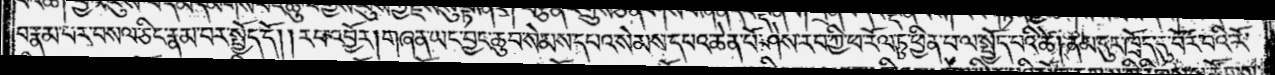བ་རྣམ་པར་བསལ་ཅིང་རྣམ་པར་སྤྱོད་དོ། །རབ་འབྱོར། གཞན་ཡང་བྱང་ཆུབ་སེམས་དཔའ་སེམས་དཔའ་ཆེན་པོ་ཤེས་རབ་ཀྱི་ཕ་རོལ་ཏུ་ཕྱིན་པ་ལ་སྤྱོད་པའི་ཚེ། ནམ་དུར་ཁྲོད་དུ་པོར་བའི་རོ་
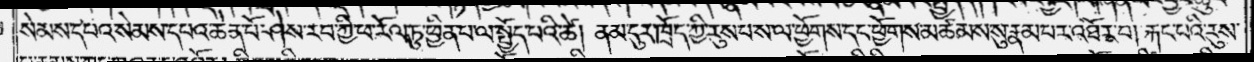སེམས་དཔའ་སེམས་དཔའ་ཆེན་པོ་ཤེས་རབ་ཀྱི་ཕ་རོལ་ཏུ་ཕྱིན་པ་ལ་སྤྱོད་པའི་ཚེ། ནམ་དུར་ཁྲོད་ཀྱི་རུས་པ་ས་ལ་ཕྱོགས་དང་ཕྱོགས་མཚམས་སུ་རྣམ་པར་འཐོར་བ། རྐང་པའི་རུས་
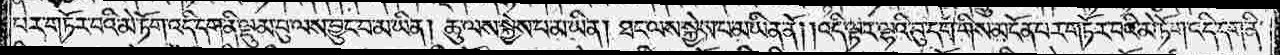པར་གཏོར་བའི་མེ་ཏོག་འདི་དག་ནི་ལྡུམ་བུ་ལས་བྱུང་བ་མ་ཡིན། ཆུ་ལས་སྐྱེས་པ་མ་ཡིན། ཐང་ལས་སྐྱེས་པ་མ་ཡིན་ནོ། །འདི་ལྟར་ལྷའི་བུ་དག་གིས་མངོན་པར་གཏོར་བའི་མེ་ཏོག་འདི་དག་ནི་
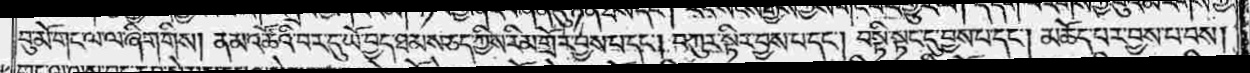བུ་མོ་གང་ལ་ལ་ཞིག་གིས། ནམ་འཚོའི་བར་དུ་ཡོ་བྱད་ཐམས་ཅད་ཀྱིས་རིམ་གྲོར་བྱས་པ་དང༌། བཀུར་སྟིར་བྱས་པ་དང༌། བསྟི་སྟང་དུ་བྱས་པ་དང༌། མཆོད་པར་བྱས་པ་བས།
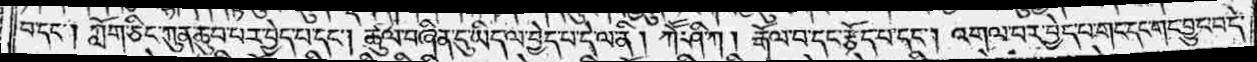བ་དང༌། ཀློག་ཅིང་ཀུན་ཆུབ་པར་བྱེད་པ་དང༌། ཚུལ་བཞིན་དུ་ཡིད་ལ་བྱེད་པ་དེ་ལ་ནི། ཀཽ་ཤི་ཀ། རྒོལ་བ་དང་རྩོད་པ་དང༌། འགལ་བར་བྱེད་པ་གང་དང་གང་བྱུང་བ་དེ་
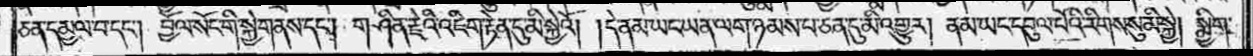ཅན་དམྱལ་བ་དང༌། བྱོལ་སོང་གི་སྐྱེ་གནས་དང༌། གཤིན་རྗེའི་འཇིག་རྟེན་དུ་མི་སྐྱེའོ། །དེ་ནམ་ཡང་ཡན་ལག་ཉམས་པ་ཅན་དུ་མི་འགྱུར། ནམ་ཡང་དབུལ་པོའི་རིགས་སུ་མི་སྐྱེ། སྨྱིག་
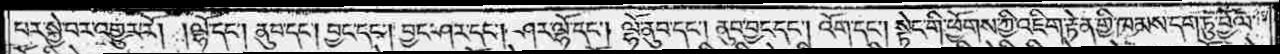དེས་གཟུགས་བརྙན་དུའང་འགྱུར་རེ་སྐན། ཤཱ་ར་དྭ་ཏིའི་བུ། ངས་ནི་གང་ཟག་དེ་ལྟ་བུ་ཐོས་པར་བྱ་བར་ཡང་མ་གནང་ན་འཕྲད་པར་ལྟ་ཅི་སྨོས་ཏེ། འགྲོགས་པར་ལྟ་ཅི་སྨོས་ཀྱང་མི་སྨོས་སོ། །
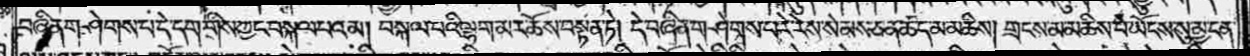བཞིན་གཤེགས་པ་དེ་དག་གིས་ཀྱང་བསྐལ་པའམ། བསྐལ་པའི་ལྷག་མར་ཆོས་བསྟན་ཏེ། དེ་བཞིན་གཤེགས་པ་རེ་རེས་སེམས་ཅན་ཚད་མ་མཆིས། གྲངས་མ་མཆིས་པ་ཡོངས་སུ་མྱ་ངན་
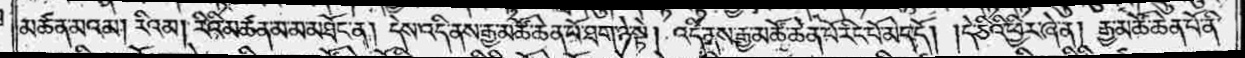མཚན་མའམ། རིའམ། རིའི་མཚན་མ་མ་མཐོང་ན། དེས་འདི་ནས་རྒྱ་མཚོ་ཆེན་པོ་ཐག་ཉེ་སྟེ། འདི་ནས་རྒྱ་མཚོ་ཆེན་པོ་རིང་པོ་མེད་དོ། །དེ་ཅིའི་ཕྱིར་ཞེ་ན། རྒྱ་མཚོ་ཆེན་པོ་ནི་
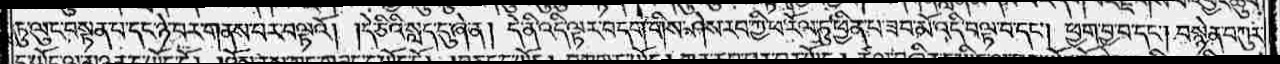ཏུ་ལུང་བསྟན་པ་དང་ཉེ་བར་གནས་པར་བལྟའོ། །དེ་ཅིའི་སླད་དུ་ཞེ་ན། དེ་ནི་འདི་ལྟར་བདག་གིས་ཤེས་རབ་ཀྱི་ཕ་རོལ་ཏུ་ཕྱིན་པ་ཟབ་མོ་འདི་བལྟ་བ་དང༌། ཕྱག་བྱ་བ་དང༌། བསྙེན་བཀུར་
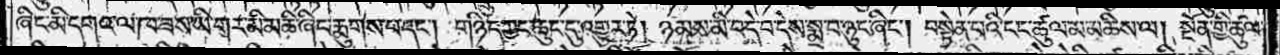ཞིང་མི་དགའ་ལ་ཁ་ཟས་ཡི་གར་མི་མཆི་ཞིང་རྨུགས་པ་དང༌། གཉིད་ཀྱང་ཆུང་དུ་འགྱུར་ཏེ། ཉམས་མི་བདེ་བ་དེས་སྨྲ་བ་ཉུང་ཞིང༌། བསྟེན་པའི་ངང་ཚུལ་མ་མཆིས་ལ། སྔོན་གྱི་ཚུལ་
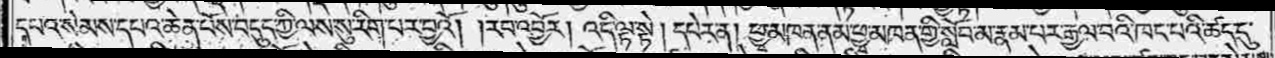དཔའ་སེམས་དཔའ་ཆེན་པོས་བདུད་ཀྱི་ལས་སུ་རིག་པར་བྱའོ། །རབ་འབྱོར། འདི་ལྟ་སྟེ། དཔེར་ན། ཕྱྭ་མཁན་ནམ་ཕྱྭ་མཁན་གྱི་སློབ་མ་རྣམ་པར་རྒྱལ་བའི་ཁང་པའི་ཚད་དུ་
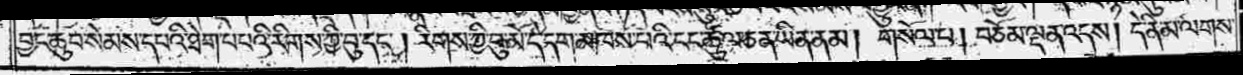བྱང་ཆུབ་སེམས་དཔའི་ཐེག་པ་པའི་རིགས་ཀྱི་བུ་དང༌། རིགས་ཀྱི་བུ་མོ་དེ་དག་མཁས་པའི་ངང་ཚུལ་ཅན་ཡིན་ནམ། གསོལ་པ། བཅོམ་ལྡན་འདས། དེ་ནི་མ་ལགས་
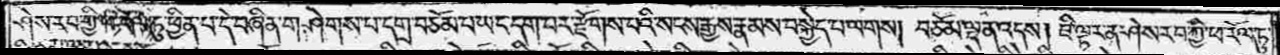ཤེས་རབ་ཀྱི་ཕ་རོལ་ཏུ་ཕྱིན་པ་དེ་བཞིན་གཤེགས་པ་དགྲ་བཅོམ་པ་ཡང་དག་པར་རྫོགས་པའི་སངས་རྒྱས་རྣམས་བསྐྱེད་པ་ལགས། བཅོམ་ལྡན་འདས། ཇི་ལྟར་ན་ཤེས་རབ་ཀྱི་ཕ་རོལ་ཏུ་
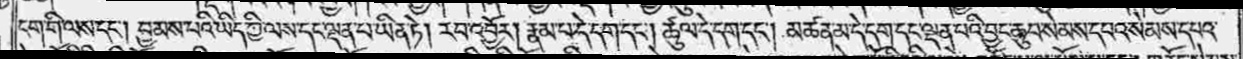ངག་གི་ལས་དང༌། བྱམས་པའི་ཡིད་ཀྱི་ལས་དང་ལྡན་པ་ཡིན་ཏེ། རབ་འབྱོར། རྣམ་པ་དེ་དག་དང༌། ཚུལ་དེ་དག་དང༌། མཚན་མ་དེ་དག་དང་ལྡན་པའི་བྱང་ཆུབ་སེམས་དཔའ་སེམས་དཔའ་
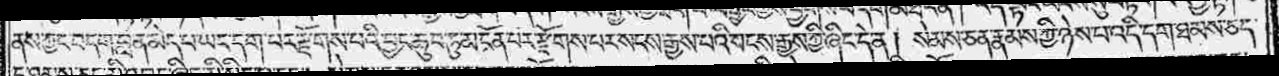ནས་ཀྱང་བདག་བླ་ན་མེད་པ་ཡང་དག་པར་རྫོགས་པའི་བྱང་ཆུབ་ཏུ་མངོན་པར་རྫོགས་པར་སངས་རྒྱས་པའི་སངས་རྒྱས་ཀྱི་ཞིང་དེ་ན། སེམས་ཅན་རྣམས་ཀྱི་ཉེས་པ་འདི་དག་ཐམས་ཅད་
